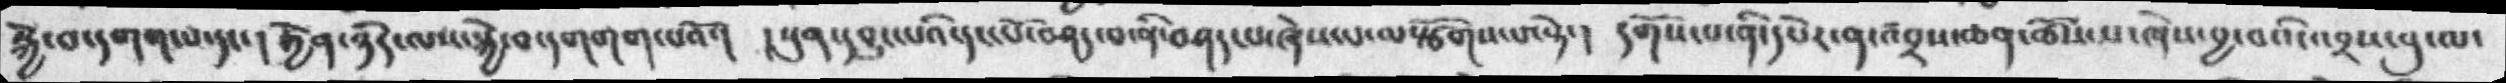སྐྱེ་བ་དགག་པ་དང་། རྐྱེན་ཉིད་ལས་སྐྱེ་བ་དགགག་པའོ་། །སུན་དབྱུང་པའི་དང་པོ་བཤད་པ་ཞེས་པ་ལསྩོགས་པ་སྟེ་། དགོས་པ་ནི་དཔེར་ན་འབྲས་ཆན་ཚོས་པ་ཞེས་བྱ་བའི་འབྲས་བུ་ལ་
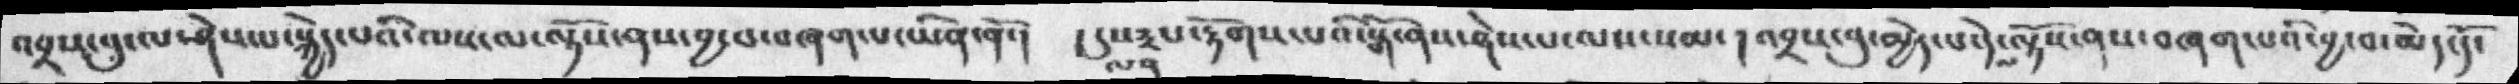འབྲས་བུ་ལ་ཤེས་པ་སྐྱེད་པའི་ལས་ལ་ལྟོས་ནས་བྱ་བ་བཞག་པ་ཡིན་།  །དུས༣པ་རྟོགས་པའི་སྒོ་ནས་ཤེས་པ་ལས་སམ་།  འབྲས་བུ་མྱེད་པ་དེ་ལ་ལྟོས་ནས་བཞག་པའི་བྱ་བ་མེད་དོ་
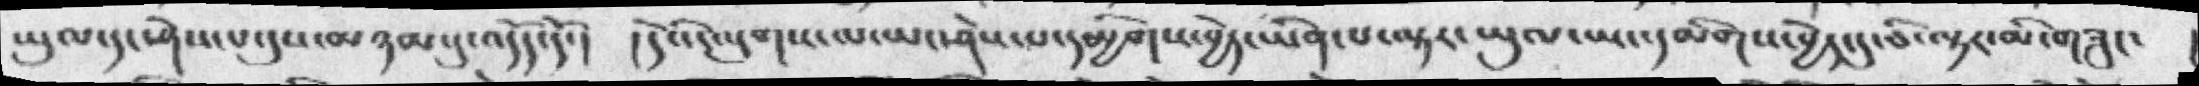ཡུལ་དང་ཤེས་པ་དུས་མཉམ་དུ་འདོད་དོ་། །དེའི་ལུགས་ལ་ཡང་ཤེས་པ་དམྱིགས་བྱེད་ཡིན་པ་ལྟར་ཡུལ་ཡང་དམིགས་བྱེད་དུ་ཅི་ལྟར་མི་གཟུང་
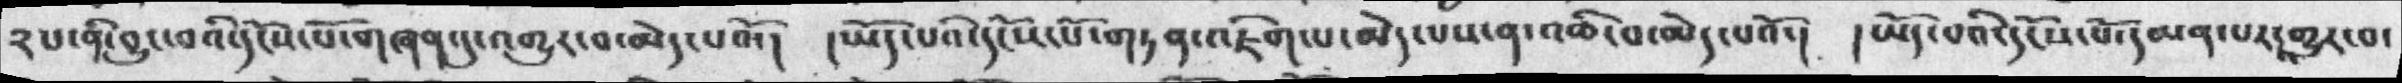༢པ་ནི་བྱུང་བའི་དངོས་པོ་གཞན་དུ་འགྱུར་བ་མེད་པའོ་།  །ཡོད་པའི་དངོས་པོ་གཏན་འཇིག་པ་མེད་པས་ན་འཆི་བ་མེད་པའོ་།  །ཡོད་བའི་དངོས་པོ་དམན་པར་འགྱུར་བ་
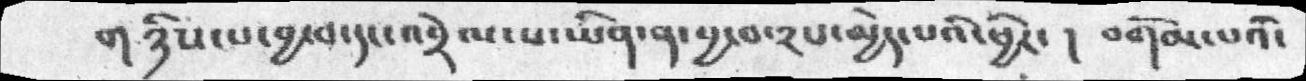གཉིས་པ་བྱ་བ་དང་འབྲེལ་པ་ཡིན་ན་བྱ་བ་༢པ་མྱེད་པའི་ཕྱིར་། བགོམ་པའི་
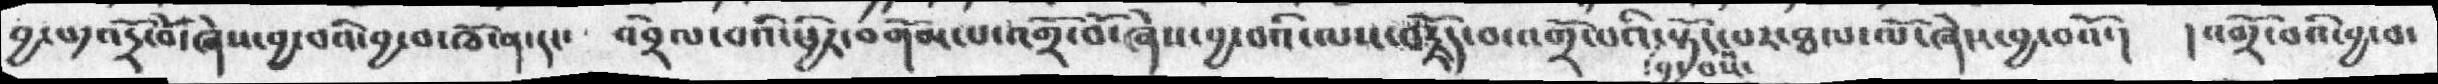བྱ་བ༡འདྲོ་བོ་ཞེས་བྱ་བའི་བྱ་བ་ཁོ་ན་དང་།  འབྲེལ་བའི་ཕྱིར་བགོམ་པ་འགྲོ་བོ་ཞེས་བྱ་བའི་ལས་བརྗོད་བ་འགྲོ་པའི་བྱ་བས་སྟོངས་པར་ཐལ་ལོ་ཞེས་བྱ་བའོ་།  །འགྲོ་བའི་བྱ་བ་
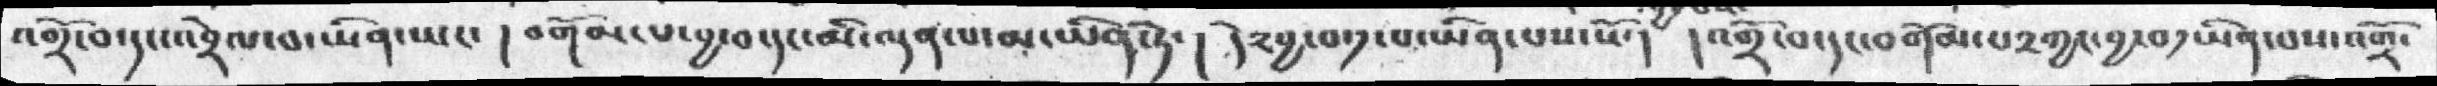འགྲོ་བ་དང་འབྲེལ་བ་ཡིན་ཡང་།  བགོམ་པ་བྱ་བ་དང་མི་ལྡན་པ་མ་ཡིན་ཏེ་།  དེ༢བྱ་བ་༡་པ་ཡིན་པས་སོ་།  །འགྲོ་བ་དང་བགོམ་པ༢ཀྱང་བྱ་བ༡ཡིན་པས་འགྲོ་
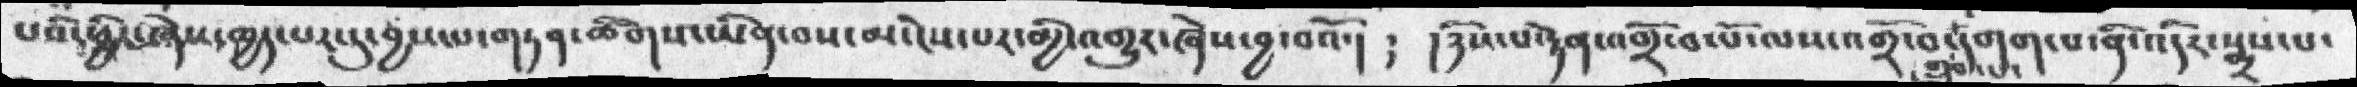པའི་ཕྱིར་ཞེས་ཁྱད་པར་དུ་བྱས་པ་གཏན་ཚིགས་ཡིན་བས་མ་ངེས་པར་མྱི་འགྱུར་ཞེས་བྱ་བའོ་།   ༴  །ཉེས་པ་རྟེན་འགྲོ་བ་པོ་ལས་འགྲོ་བ་གྲུབ་པ་དགག་པ་ནི་འདིར་སྨྲས་པ་
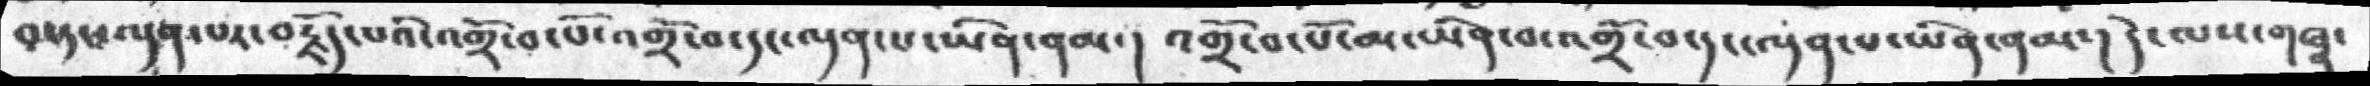བ་དང་ལྡན་པར་བརྗོད་པའི་འགྲོ་བ་པོ་འགྲོ་བ་དང་ལྡན་པ་ཡིན་ནམ་།  འགྲོ་བ་པོ་མ་ཡིན་བ་འགྲོ་བ་དང་ལྡན་པ་ཡིན་ནམ་།  དེ་ལས་གཞན་
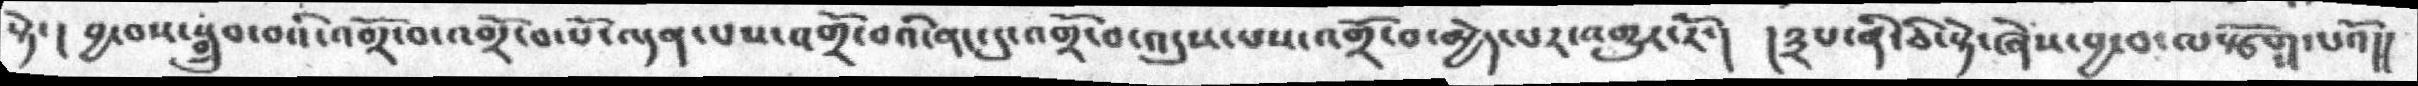སྟེ་།  བྱ་བས་སྒྲུབ་བའི་འགྲོ་བ་འགྲོ་བ་པོ་ལྡན་པས་འགྲོ་བའི་ནང་དུ་འགྲོ་བ་འདུས་པས་འགྲོ་བ་མྱེད་པར་འགྱུར་རོ་།  །༣པ་ནི་ཅི་སྟེ་ཞེས་བྱ་བ་ལསྩོགས་པའོ།།
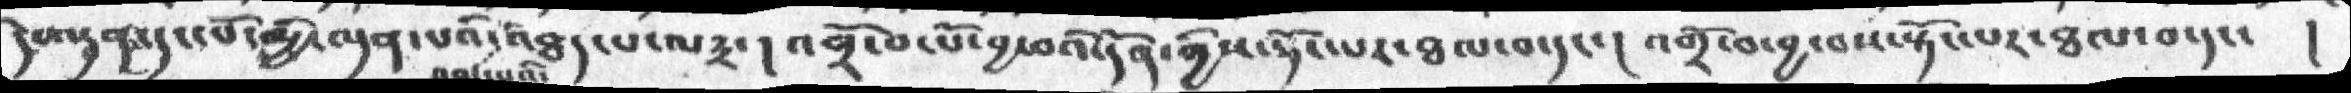དེས་ལྡན་དང་པོ་མྱི་ལྡན་པའི་འཐད་པའི་འཐད་པ་ལ༣་།  འགྲོ་བ་པོ་བྱ་བའི་དོན་གྱིས་སྟོང་པར་ཐལ་བ་དང་།  འགྲོ་བ་བྱ་བས་སྟོང་པར་ཐལ་བ་དང་     །
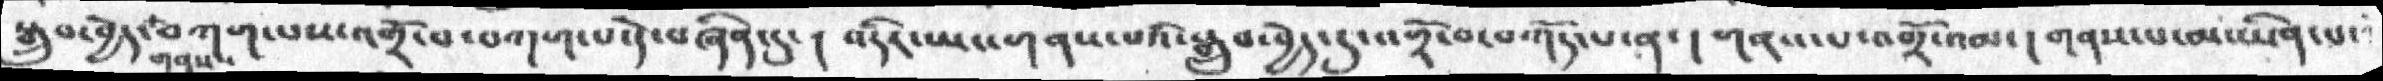སྒྲུབ་བྱེད་གནས་བཀག་པས་འགྲོ་བ་བཀག་པ་དེ་བཞིན་དུ་།  འདིར་ཡང་གནས་པའི་སྒྲུབ་བྱེད་དུ་འགྲོ་བ་བཀོད་པ་ན་།  གནས་པ་འགྲོ་འམ་།  གནས་པ་མ་ཡིན་པ་
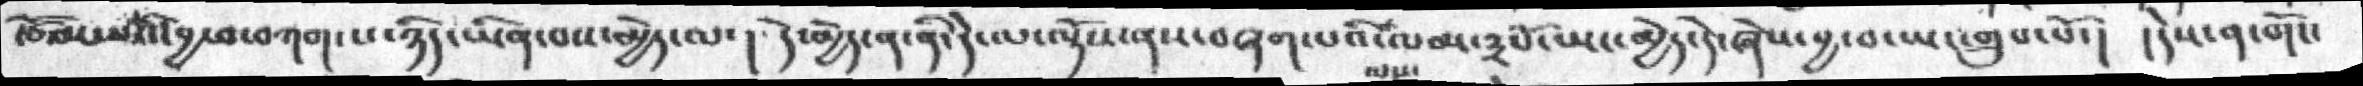རྩོམ་པའི་བྱ་བ་བཀག་པ་ཉིད་ཡིན་པས་མྱེད་ལ་།  དེ་མྱེད་ན་ནི་དེ་ལ་ལྟོས་ནས་བཞག་པའི་ལས་ལམ་༣པོ་ཡང་མྱེད་དེ་ཞེས་བྱ་བ་ཡང་གྲུབ་བོ་།   །དེས་ན་གོང་
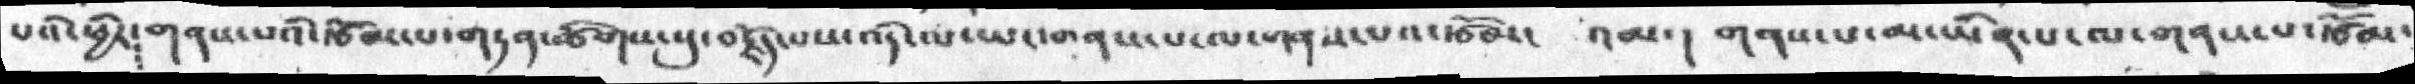པའི་ཕྱིར་གནས་པའི་རྩོམ་པ་གཏན་ཚིགས་སུ་བརྗོད་པས་འདི་ལ་ཡང་གནས་པ་ལ་གནས་པའ་རྩོམ་  འམ་། གནས་པ་མ་ཡིན་པ་ལ་གནས་པ་རྩོམ་
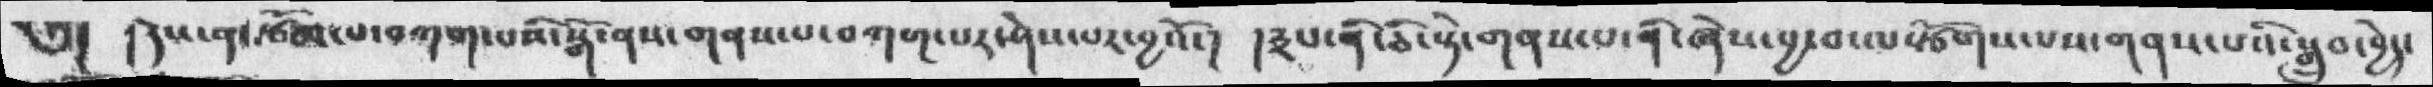༅། །དེས་ན་རྩོམ་པ་བཀག་པའི་སྒོ་ནས་གནས་པ་བཀག་པར་ཤེས་པར་བྱའོ་། །༣པ་ནི་ཅི་སྟེ་གནས་པ་ནི་ཞེས་བྱ་བ་ལསྩོགས་པས་གནས་པའི་སྒྲུབ་བྱེད་
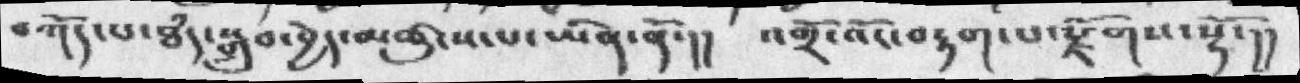བཀོད་པ་ཐཾད་སྒྲུབ་བྱེད་མཚུངས་པ་ཡིན་ནོ་།།  འགྲོ་འོང་བརྟག་པ་རྫོགས་སྷོ་།།
